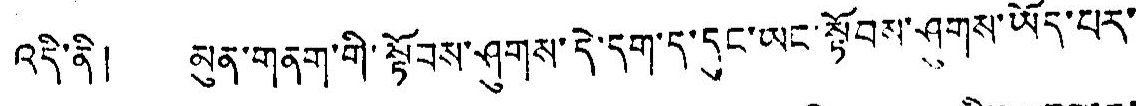འདི་ནི། མུན་གནག་གི་སྟོབས་ཤུགས་དེ་དག་ད་དུང་ཡང་སྟོབས་ཤུགས་ཡོད་པར་
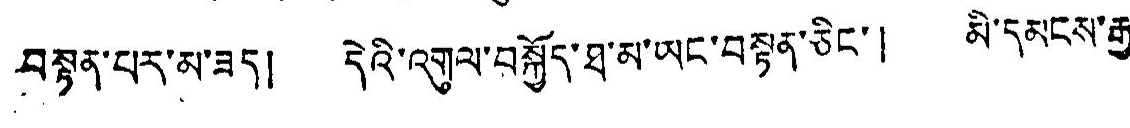བསྟན་པར་མ་ཟད། དེའི་འགུལ་བསྐྱོད་ཐ་མ་ཡང་བསྟན་ཅིང་། མི་དམངས་རྒྱ་
